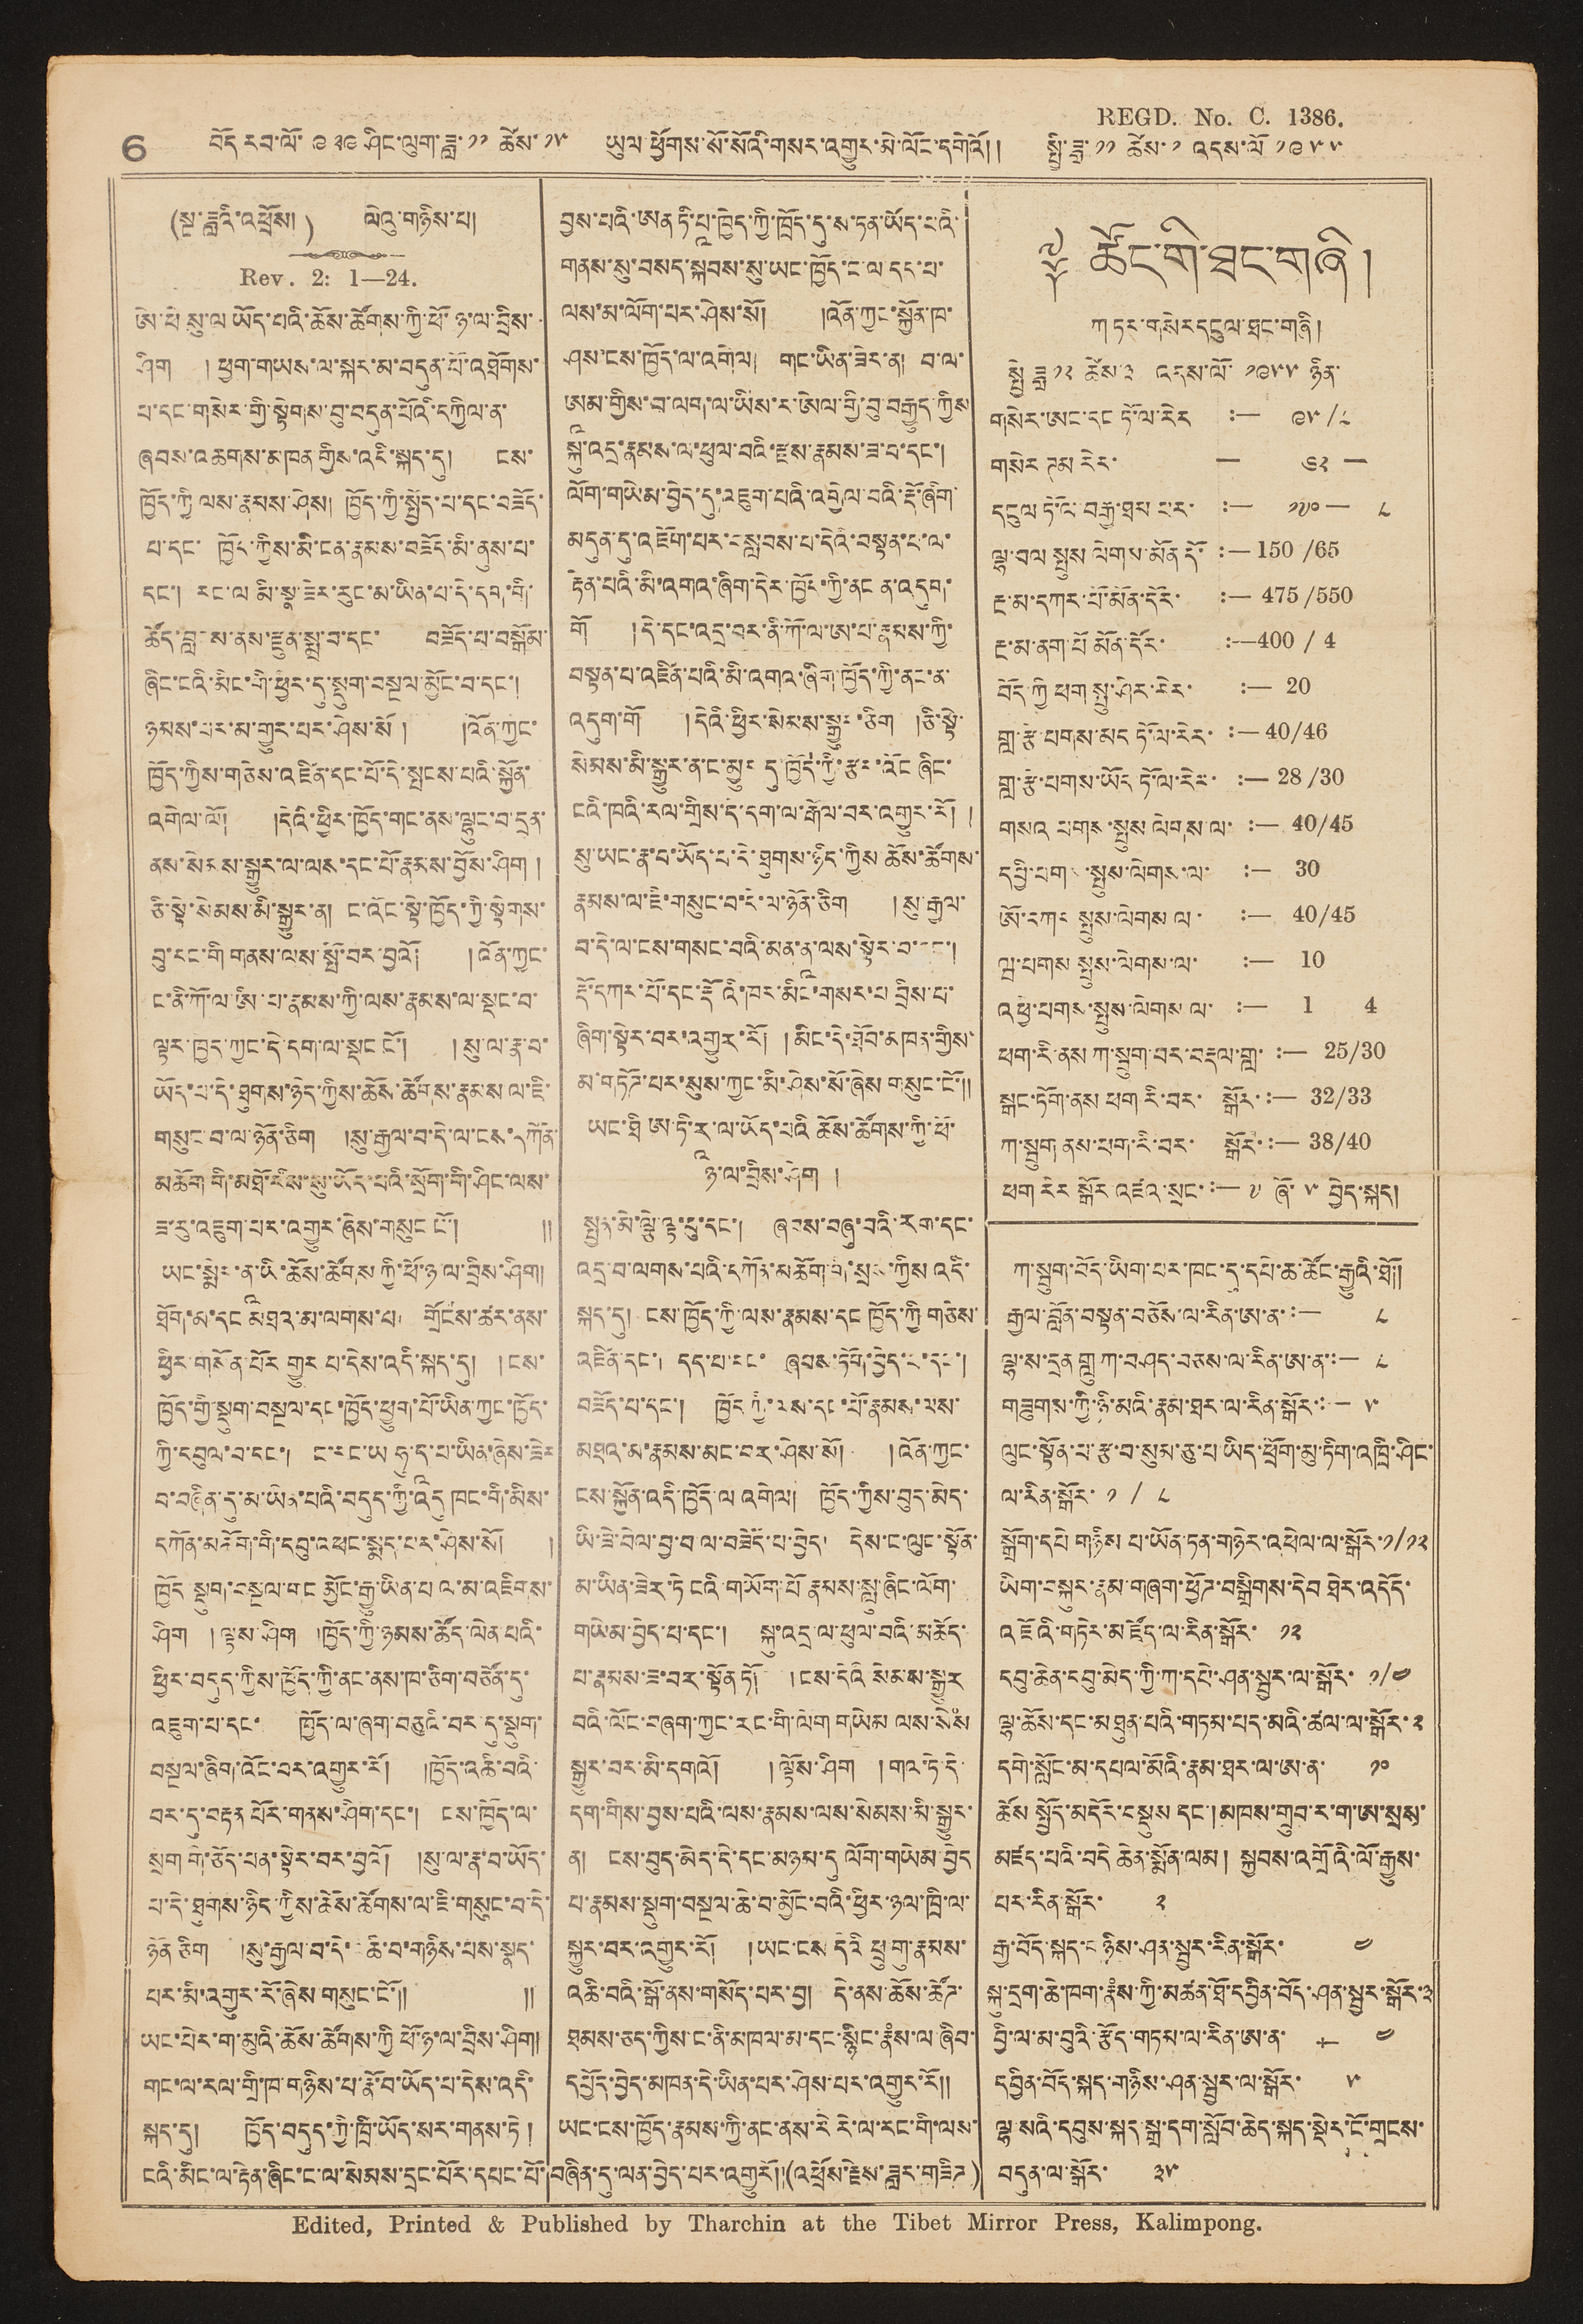REGD. No. C. 1386.
6 བོད རབ་ལོ་ ༩༢༩ ཤིང་ལུག་ཟླ་ ༡༡ ཚེས་ ༡༥ ཡུལ་ཕྱོགས་སོ་སོའི་གསར་འགྱུར་མེ་ལོང་དགེའོ། །  སྤྱི་ཟླ་ ༡༡ ཚེས་ ༡ འདས་ལོ ༡༩༥༥
(སྔ་ཟླའི་འཕྲོས།) ལེའུ་གཉིས་པ།
Rev.  2:   1—24.
ཨེ་ཕེ སུ་ལ ཡོད་པའི་ཆོས་ཚོགས་ཀྱི་ཕོ་ཉ་ལ་བྲིས་
ཤིག   །ཕྱག་གཡས་ལ་སྐར་མ་བདུན་པོ་འཐོགས་
པ་དང་གསེར་གྱི་སྟེགས་བུ་བདུན་པོའི་དཀྱིལ་ན་
ཞབས་འཆགས་མཁན གྱིས་འདི་སྐད་དུ། ངས་
ཁྱོད་ཀྱི ལས་རྣམས་ཤེས། ཁྱོད་ཀྱི་སྤྱོད་པ་དང་བཟོད་
པ་དང་ ཁྱོད་ཀྱིས་མི་ངན་རྣམས་བཟོད་མི་ནུས་པ་
དང་། རང་ལ མི་སྣ་ཟེར་རུང་མ་ཡིན་པ་དེ་དག་གི་
ཚོད་བླངས་ནས་རྫུན་སྨྲ་བ་དང་    བཟོད་པ་བསྒོམ་
ཞིང་ངའི་མིང་གི་ཕྱིར་དུ་སྡུག་བསྔལ་མྱོང་བ་དང་།
ཉམས་པར་མ་གྱུར་པར་ཤེས་སོ ། །འོན་ཀྱང་
ཁྱོད་ཀྱིས་གཅེས་འཛིན་དང་པོ་དེ་སྤངས་པའི་སྐྱོན་
འགེལ་ལོ།    །དེའི་ཕྱིར་ཁྱོད་གང་ནས་ལྷུང་བ་དྲན་
ནས་སེམས་སྒྱུར་ལ་ལས་དང་པོ་རྣམས་བྱོས་ཤིག །
ཅི་སྟེ་སེམས་མི་སྒྱུར་ན། ང་འོང་སྟེ་ཁྱོད་ཀྱི་སྟེགས་
བུ་རང་གི གནས་ལས་སྤོ་བར་བྱའོ། །འོན་ཀྱང་
ང་ནི་ཀོ་ལ་ཨི་པ་རྣམས་ཀྱི་ལས་རྣམས་ལ་སྡང་བ་
ལྟར་ཁྱད་ཀྱང་དེ་དག་ལ་སྡང ངོ་།    །སུ་ལ་རྣ་བ་
ཡོད་པ་དེ་ཐུགས་ཉེད་ཀྱིས་ཆོས་ཚོགས་རྣམས ལ་ཇི་
གསུང་བ་ལ་ཉོན་ཅིག   །སུ་རྒྱལ་བ་དེ་ལ་ངས་དཀོན་
མཆོག གི་མཐོ་རིས་སུ་ཡོད་པའི་སྲོག་གི་ཤིང་ལས་
ཟ་རུ་འཇུག་པར་འགྱུར་ཞེས་གསུང ངོ་། །།
ཡང་སྨེར་ནཱ་ཡི་ཆོས་ཚོགས་ཀྱི་ཕོ་ཉ་ལ་བྲིས་ཤིག།
ཐོག་མ་དང་མཐའ་མ་ལགས་པ།   གྲོངས་ཚར་ནས་
ཕྱིར་གསོན་པོར གྱུར པ་དེས་འདི་སྐད་དུ།   །ངས་
ཁྱོད་གྱི་སྡུག་བསྔལ་དང་ཁྱོད་ཕྱུག་པོ་ཡིན་ཀྱང་ཁྱོད་
ཀྱི་དབུལ་བ་དང་།  ང་རང་ཡ ཧུ་དཱ་པ་ཡིན་ཞེས་ཟེར
བ་བཞིན་དུ་མ་ཡིན་པའི་བདུད་ཀྱི་འདུ ཁང་གིུ་མིས་
དཀོན་མཆོག་གི་དབུ་འཕང་སྨད་པར་ཤེས་སོ།     །
ཁྱོད སྡུག་བསྔལ་གང མྱོང་རྒྱུ་ཡིན་པ ལ་མ་འཇིགས་
ཤིག    ། ལྟས་ཤིག  །ཁྱོད་ཀྱི་ཉམས་ཚོད་ལེན་པའི་
ཕྱིར་བདུད་ཀྱིས་ཁྱོད་ཀྱི་ནང་ནས་ཁ་ཅིག་བཙོན་དུ་
འཇུག་པ་དང་   ཁྱོད་ལ་ཞག་བཅུའི་བར་དུ་སྡུག་
བསྔལ་ཞིག་འོང་བར་འགྱུར་རོ།    །ཁྱོད་འཆི་བའི་
བར་དུ་བརྟན པོར་གནས་ཤིག་དང་།  ངས་ཁྱོད་ལ་
སྲོག་གི་ཅོད་པན་སྟེར་བར་བྱའོ།   །སུ་ལ་རྣ་བ་ཡོད་
པ་དེ་ཐུགས་ཉིད་ཀྱིས་ཆོས་ཚོགས་ལ་ཇི་གསུང་བ་དེ་
ཉོན་ཅིག   །སུ་རྒྱལ་བ་དེ་འཆི་བ་གཉིས་པས་སྣད་
པར་མི་འགྱུར་རོ་ཞེས་གསུང་ངོ་།།              །།
ཡང་པེར་ག་མུའི་ཆོས་ཚོགས་ཀྱི ཕོ་ཉ་ལ་བྲིས་ཤིག།
གང་ལ་རལ་གྲི་ཁ་གཉིས་པ་རྣོ་བ་ཡོད་པ་དེས་འདི་
སྐད་དུ།   ཁྱོད་བདུད་ཀྱི་ཁྲི་ཡོད་སར་གནས་ཏེ །
ངའི་མིང་ལ་རྟེན་ཞིང་ང་ལ་སེམས་དྲང་པོར་དཔང་པོ་
བྱས་པའི་ཨན ཏི་པཱ་ཁྱེད་ཀྱི་ཁྲོད་དུ་ས་ཏན་ཡོད་པའི་
གནས་སུ་བསད་སྐབས་སུ་ཡང་ཁྱོད་ང་ལ་དད་པ་
ལས་མ་ལོག་པར་ཤེས་སོ།      །འོན་ཀྱང་སྐྱོན་ཁ་
ཤས་ངས་ཁྱོད་ལ་འགེལ།  གང་ཡིན་ཟེར་ན། བ་ལ་
ཨཱམ་གྱིས་བ་ལག་ལ་ཡིས་ར་ཨེལ་གྱི་བུ་བརྒྱུད་ཀྱིས
སྐུ་འདྲ་རྣམས་ལ་ཕུལ་བའི་རྫས་རྣམས་ཟ་བ་དང་།
ལོག་གཡེམ་བྱེད་དུ་འཇུག་པའི་འགྱེལ་བའི་རྡོ་ཞིག་
མདུན་དུ་འཇོག་པར་བསླབས་པ་དེའི་བསྟན་པ་ལ་
རྟེན་པའི་མི་འགའ་ཞིག་དེར་ཁྱོད་ཀྱི་ནང ན་འདུག་
གོ    །དེ་དང་འདྲ་བར་ནི་ཀོ་ལ་ཨ་པ་རྣམས་ཀྱི་
བསྟན་པ་འཛིན་པའི་མི་འགའ་ཞིག་ཁྱོད་ཀྱི་ནང་ན་
འདུག་གོ      །དེའི་ཕྱིར་སེམས་སྒྱུར་ཅིག  །ཅི་སྟེ་
སེམས་མི་སྒྱུར་ན་ང་མྱུར དུ་ཁྱོད་ཀྱི་རྩར་འོང ཞིང་
ངའི་ཁའི་རལ་གྲིས་དེ་དག་ལ་རྒོལ་བར་འགྱུར་རོ། །
སུ་ཡང་རྣ་བ་ཡོད་པ་དེ་ཐུགས་ཉིད་ཀྱིས་ཆོས་ཚོགས་
རྣམས་ལ་ཇི་གསུང་བ་དེ་ལ་ཉོན་ཅིག     ། སུ་རྒྱལ་
བ་དེ་ལ་ངས་གསང་བའི་མན་ནཱ་ལས་སྟེར་བ་དང་།
རྡོ་དཀར་པོ་དང་རྡོའི་ཁར་མིང་གསར་པ བྲིས་པ་
ཞིག་སྟེར་བར་འགྱུར་རོ།  །མིང་དེ་ཐོབ་མཁན་གྱིས་
མ་གཏོཌ་པར་སུས་ཀྱང་མི་ཤེས་སོ་ཞེས གསུང་ངོ་༎
ཡང་ཐི ཨ་ཏི་རཱ་ལ་ཡོད་པའི ཆོས་ཚོགས་ཀྱི་ཕོ་
ཉ་ལ་བྲིས་ཤིག །
སྤྱན་མེ་ལྕེ་ལྟ་བུ་དང་། ཞབས་བཞུ་བའི་རག་དང་
འདྲ་བ་ལགས་པའི་དཀོན་མཆོག་གི་སྲས་ཀྱིས འདི་
སྐད་དུ། ངས་ཁྱོད་ཀྱི་ལས་རྣམས་དང ཁྱོད་ཀྱི གཅེས་
འཛིན་དང་། དད་པ་དང་ ཞབས་ཏོག་བྱེད་པ་དང་།
བཟོད་པ་དང་། ཁྱོད ཀྱི་ལས་དང་པོ་རྣམས་ལས་
མཐའ་མ་རྣམས་མང་བར་ཤེས་སོ། །འོན་ཀྱང་
ངས་སྐྱོན་འདི་ཁྱོད་ལ འགེལ། ཁྱོད་ཀྱིས་བུད་མེད་
ཡི་ཟེ་བེལ་བྱ་བ་ལ་བཟོད་པ་བྱེད། དེས་ང་ལུང་སྟོན་
མ་ཡིན་ཟེར་ཏེ ངའི་གཡོག་པོ རྣམས་སླུ་ཞིང་ལོག་
གཡེམ་བྱེད་པ་དང་།    སྐུ་འདྲ་ལ་ཕུལ་བའི་མཆོད་
པ་རྣམས་ཟ་བར་སྟོན ཏོ།    །ངས་དེའི སེམས་སྒྱུར
བའི་ལོང་བཞག་ཀྱང་རང་གི་ལོག གཡེམ ལས་སེཾས
སྒྱུར་བར་མི་དགའོ།    །ལྟོས་ཤིག  །གལ་ཏེ་དེ་
དག་གིས་བྱས་པའི་ལས་རྣམས་ལས་སེམས་མི་སྒྱུར་
ན། ངས་བུད་མེད་དེ་དང་མཉམ་དུ ལོག་གཡེམ་བྱེད
པ་རྣམས་སྡུག་བསྔལ་ཆེ་བ་མྱོང་བའི་ཕྱིར་ཉལ་ཁྲི་ལ་
སྐྱུར་བར་འགྱུར་རོ། །ཡང་ངས དེའི ཕྲུ་གུ་རྣམས་
འཆི་བའི་སྒོ་ནས་གསོད་པར་བྱ། དེ་ནས་ཆོས་ཚོཌ་
ཐམས་ཅད་ཀྱིས་ང་ནི་མཁལ་མ་དང་སྙིང་རྣཾས་ལ་ཞིབ་
དཔྱོད་བྱེད་མཁན་དེ་ཡིན་པར་ཤེས་པར་འགྱུར་རོ།།
ཡང་ངས་ཁྱོད་རྣམས་ཀྱི་ནང་ནས་རེ རེ་ལ་རང་གི་ལས་
བཞིན་དུ་ལན་བྱེད་པར་འགྱུརོ།།(འཕྲོས་རྗེས་ཟླར་གཟིཌ )
༈ ཚོང་གི་ཐང་གཞི།
ཀ ཏར་གསེར དངུལ་ཐང་གཞི།
སྤྱི ཟླ ༡༢ ཚེས་༣ འདས་ལོ་ ༡༩༥༥ ཉིན་
གསེར་ཨང་དང ཏོ་ལ་རེར :—  ༩༥/༨
གསེར ཊམ རེར་ — ༦༢ 一
དངུལ ཏོ་ལ་བརྒྱ་ཐམ པར་ :— ༡༧༠ — ༨
ལྷ་བལ སྤུས ལེགས་མོན དོ་ :— 150 /65
རྔ་མ་དཀར་པོ་མོན་དོར་ :— 475 /550
རྔ་མ་ནག་པོ མོན་དོར་ :-—4OO / 4
བོད་ཀྱི ཕག སྤུ་ཤེར་རེར་ :— 20
གླ་རྩེ་པགས་མེད ཏོ་ལ་རེར་ :— 40/46
གླ་རྩེ་པགས་ཡོད ཏོ་ལ་རེར་ :— 28 /30
གསའ པགས་སྤུས ལེགས་ལ་ :— 40/45
དབྱི་པགས་སྤུས་ལེགས་ལ་   :—  30
ཨོ་དཀར་སྤུས་ལེགས ལ་    :— 4O/45
ཝ་པགས སྤུས་ལེགས་ལ་    :— 1O
འཕྱེ་པགས་སྤུས་ལེགས ལ་   :— 1        4
ཕག་རི་ནས ཀ་སྦུག་བར་བརྡལ་གླ་ :— 25/30
སྒང་ཏོག་ནས ཕག རི་བར་ སྒོར་:— 32/33
ཀ་སྦུག ནས་ཕག་རི་བར་ སྒོར་ :— 38/40
ཕག རིར སྒོར་འཛའ་སྲང་:— ༧ ཞོ་ ༥ བྱེད་སྐད།
ཀ་སྦུག་བོད་ཡིག་པར་ཁང་དུ་དཔེ་ཆ་ཚོང་རྒྱུའི་ཐོ།།
རྒྱལ་བློན་བསྟན་བཅོས་ལ་རིན་ཨ་ན་ :— ༨
ལྷ་ས་དྲན གླུ ཀ་བཤད་བཅས་ལ་རིན་ཨ་ན་:— ༨
གཟུགས་ཀྱི་ཉི་མའི་རྣམ་ཐར་ལ་རིན་སྒོར་:— ༥
ལུང་སྟོན་པ་རྩ་བ་སུམ་ཅུ་པ་ཡིད་ཕྲོག་མུ་ཏིག་འཁྲི་ཤིང་
ལ་རིན་སྒོར་ ༡ / ༨
སྒྲོག་དཔེ གཉིས པ་ཡོན་ཏན་གཉེར་འཕེལ་ལ་སྒོར་༡/༡༢
ཡིག་བསྐུར་རྣམ་གཞག་ཕྱོཌ་བསྒྲིགས་དེབ ཐེར་འདོད་
འཇོའི་གཏེར་མཛོད་ལ་རིན་སྒོར་  ༡༢
དབུ་ཆེན་དབུ་མེད་ཀྱི་ཀ་དཔེ་ཤན་སྦྱར་ལ་སྒོར་  ༡/༤
ལྷ་ཆོས་དང་མཐུན་པའི་གཏམ་པད་མའི་ཚལ་ལ་སྒོར་༢
དགེ་སློང་མ་དཔལ་མོའི་རྣམ་ཐར་ལ་ཨ་ན་    ༡༠
ཆོས སྤྱོད་མདོར་བསྡུས དང་།མཁས་གྲུབ་ར་ག་ཨ་སྲས་
མཛད་པའི་བདེ་ཆེན་སྨོན་ལམ། སྐྱབས་འགྲོའི་ལོ་རྒྱུས་
པར་རིན་སྒོར་ ༢
རྒྱ་བོད་སྐད་གཉིས་ཤན་སྦྱར་རིན་སྒོར་ ༤
སྐུ་དྲག་ཆེ་ཁག་རྣཾས་ཀྱི་མཚན་ཐོ་དབྱིན་བོད་ཤན་སྦྱར་སྒོར་༣
བྱི་ལ་མ་བུའི་རྩོད་གཏམ་ལ་རིན་ཨ་ན་ -:— ༤
དབྱིན་བོད་སྐད་གཉིས་ཤན་སྦྱར་ལ་སྒོར་ ༥
ལྷ་སའི་དབུས་སྐད་སྒྲ་དག་སློབ་ཆེད་སྡེར་ངོ་གྲངས་
བདུན་ལ་སྒོར་ ༣༥
Edited, Printed & Published by Tharchin at the Tibet Mirror Press, Kalimpong.
